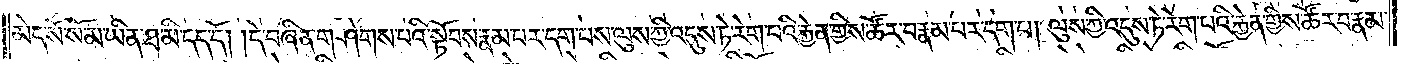མེད་སོ་སོ་མ་ཡིན་ཐ་མི་དད་དོ། །དེ་བཞིན་གཤེགས་པའི་སྟོབས་རྣམ་པར་དག་པས་ལུས་ཀྱི་འདུས་ཏེ་རེག་པའི་རྐྱེན་གྱིས་ཚོར་བ་རྣམ་པར་དག་པ། ལུས་ཀྱི་འདུས་ཏེ་རེག་པའི་རྐྱེན་གྱིས་ཚོར་བ་རྣམ་
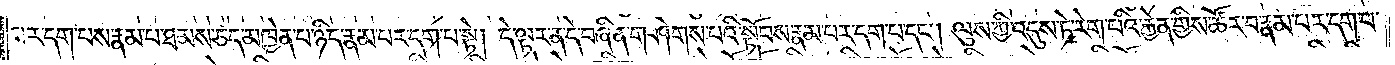པར་དག་པས་རྣམ་པ་ཐམས་ཅད་མཁྱེན་པ་ཉིད་རྣམ་པར་དག་པ་སྟེ། དེ་ལྟར་ན་དེ་བཞིན་གཤེགས་པའི་སྟོབས་རྣམ་པར་དག་པ་དང༌། ལུས་ཀྱི་འདུས་ཏེ་རེག་པའི་རྐྱེན་གྱིས་ཚོར་བ་རྣམ་པར་དག་པ་
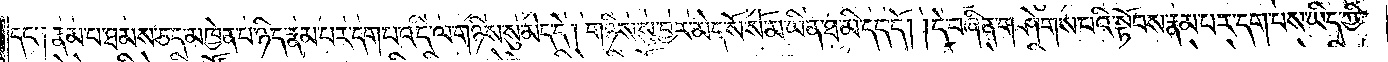དང་༑ རྣམ་པ་ཐམས་ཅད་མཁྱེན་པ་ཉིད་རྣམ་པར་དག་པ་འདི་ལ་གཉིས་སུ་མེད་དེ། གཉིས་སུ་བྱར་མེད་སོ་སོ་མ་ཡིན་ཐ་མི་དད་དོ། །དེ་བཞིན་གཤེགས་པའི་སྟོབས་རྣམ་པར་དག་པས་ཡིད་ཀྱི་
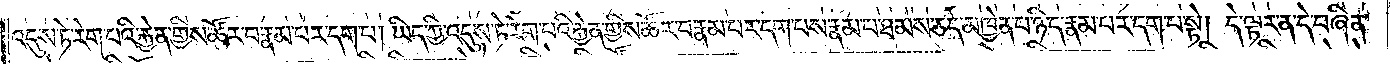འདུས་ཏེ་རེག་པའི་རྐྱེན་གྱིས་ཚོར་བ་རྣམ་པར་དག་པ། ཡིད་ཀྱི་འདུས་ཏེ་རེག་པའི་རྐྱེན་གྱིས་ཚོར་བ་རྣམ་པར་དག་པས་རྣམ་པ་ཐམས་ཅད་མཁྱེན་པ་ཉིད་རྣམ་པར་དག་པ་སྟེ། དེ་ལྟར་ན་དེ་བཞིན་
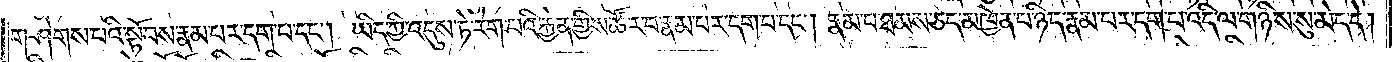གཤེགས་པའི་སྟོབས་རྣམ་པར་དག་པ་དང༌། ཡིད་ཀྱི་འདུས་ཏེ་རེག་པའི་རྐྱེན་གྱིས་ཚོར་བ་རྣམ་པར་དག་པ་དང༌། རྣམ་པ་ཐམས་ཅད་མཁྱེན་པ་ཉིད་རྣམ་པར་དག་པ་འདི་ལ་གཉིས་སུ་མེད་དེ།
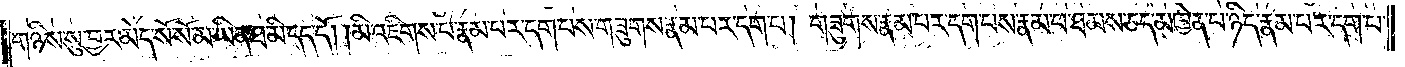གཉིས་སུ་བྱར་མེད་སོ་སོ་མ་ཡིན་ཐ་མི་དད་དོ། །མི་འཇིགས་པ་རྣམ་པར་དག་པས་གཟུགས་རྣམ་པར་དག་པ། གཟུགས་རྣམ་པར་དག་པས་རྣམ་པ་ཐམས་ཅད་མཁྱེན་པ་ཉིད་རྣམ་པར་དག་པ་
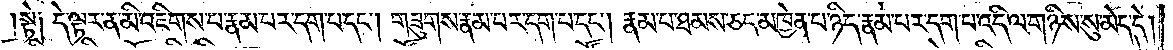སྟེ༑ དེ་ལྟར་ན་མི་འཇིགས་པ་རྣམ་པར་དག་པ་དང༌། གཟུགས་རྣམ་པར་དག་པ་དང༌། རྣམ་པ་ཐམས་ཅད་མཁྱེན་པ་ཉིད་རྣམ་པར་དག་པ་འདི་ལ་གཉིས་སུ་མེད་དེ།
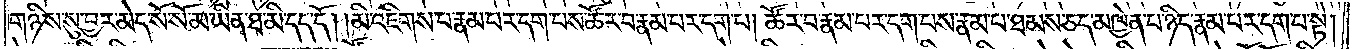གཉིས་སུ་བྱར་མེད་སོ་སོ་མ་ཡིན་ཐ་མི་དད་དོ། །མི་འཇིགས་པ་རྣམ་པར་དག་པས་ཚོར་བ་རྣམ་པར་དག་པ། ཚོར་བ་རྣམ་པར་དག་པས་རྣམ་པ་ཐམས་ཅད་མཁྱེན་པ་ཉིད་རྣམ་པར་དག་པ་སྟེ།
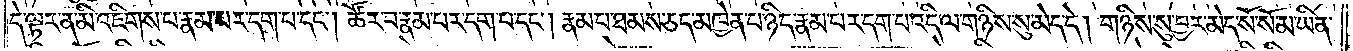དེ་ལྟར་ན་མི་འཇིགས་པ་རྣམ་པར་དག་པ་དང༌། ཚོར་བ་རྣམ་པར་དག་པ་དང༌། རྣམ་པ་ཐམས་ཅད་མཁྱེན་པ་ཉིད་རྣམ་པར་དག་པ་འདི་ལ་གཉིས་སུ་མེད་དེ། གཉིས་སུ་བྱར་མེད་སོ་སོ་མ་ཡིན་
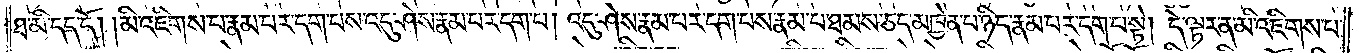ཐ་མི་དད་དོ། །མི་འཇིགས་པ་རྣམ་པར་དག་པས་འདུ་ཤེས་རྣམ་པར་དག་པ། འདུ་ཤེས་རྣམ་པར་དག་པས་རྣམ་པ་ཐམས་ཅད་མཁྱེན་པ་ཉིད་རྣམ་པར་དག་པ་སྟེ། དེ་ལྟར་ན་མི་འཇིགས་པ་
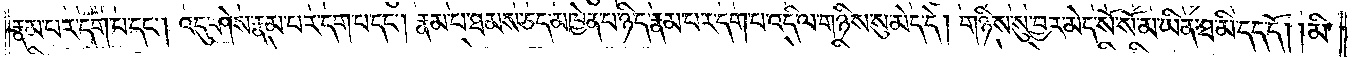རྣམ་པར་དག་པ་དང༌། འདུ་ཤེས་རྣམ་པར་དག་པ་དང༌། རྣམ་པ་ཐམས་ཅད་མཁྱེན་པ་ཉིད་རྣམ་པར་དག་པ་འདི་ལ་གཉིས་སུ་མེད་དེ། གཉིས་སུ་བྱར་མེད་སོ་སོ་མ་ཡིན་ཐ་མི་དད་དོ། །མི་
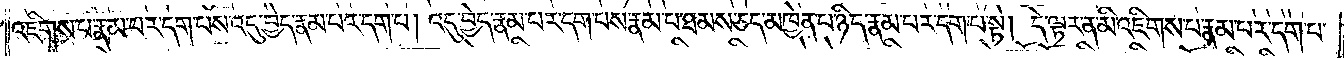འཇིགས་པ་རྣམ་པར་དག་པས་འདུ་བྱེད་རྣམ་པར་དག་པ། འདུ་བྱེད་རྣམ་པར་དག་པས་རྣམ་པ་ཐམས་ཅད་མཁྱེན་པ་ཉིད་རྣམ་པར་དག་པ་སྟེ། དེ་ལྟར་ན་མི་འཇིགས་པ་རྣམ་པར་དག་པ་
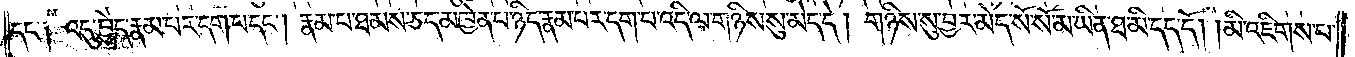དང་༑ འདུ་བྱེད་རྣམ་པར་དག་པ་དང༌། རྣམ་པ་ཐམས་ཅད་མཁྱེན་པ་ཉིད་རྣམ་པར་དག་པ་འདི་ལ་གཉིས་སུ་མེད་དེ། གཉིས་སུ་བྱར་མེད་སོ་སོ་མ་ཡིན་ཐ་མི་དད་དོ། །མི་འཇིགས་པ་
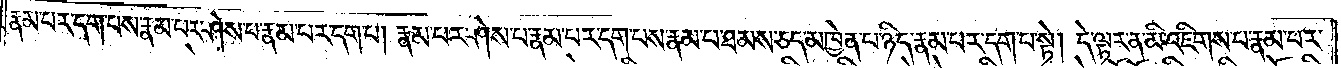རྣམ་པར་དག་པས་རྣམ་པར་ཤེས་པ་རྣམ་པར་དག་པ། རྣམ་པར་ཤེས་པ་རྣམ་པར་དག་པས་རྣམ་པ་ཐམས་ཅད་མཁྱེན་པ་ཉིད་རྣམ་པར་དག་པ་སྟེ། དེ་ལྟར་ན་མི་འཇིགས་པ་རྣམ་པར་
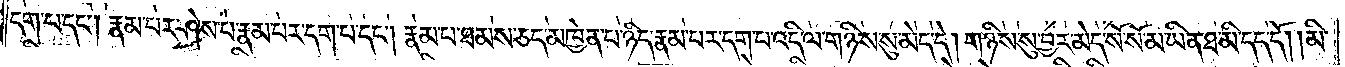དག་པ་དང༌། རྣམ་པར་ཤེས་པ་རྣམ་པར་དག་པ་དང༌། རྣམ་པ་ཐམས་ཅད་མཁྱེན་པ་ཉིད་རྣམ་པར་དག་པ་འདི་ལ་གཉིས་སུ་མེད་དེ། གཉིས་སུ་བྱར་མེད་སོ་སོ་མ་ཡིན་ཐ་མི་དད་དོ། །མི་
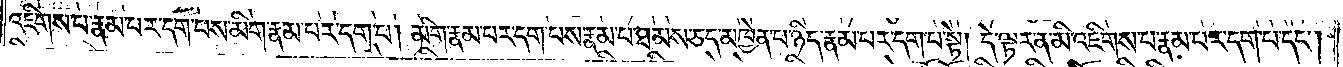འཇིགས་པ་རྣམ་པར་དག་པས་མིག་རྣམ་པར་དག་པ། མིག་རྣམ་པར་དག་པས་རྣམ་པ་ཐམས་ཅད་མཁྱེན་པ་ཉིད་རྣམ་པར་དག་པ་སྟེ། དེ་ལྟར་ན་མི་འཇིགས་པ་རྣམ་པར་དག་པ་དང༌།
